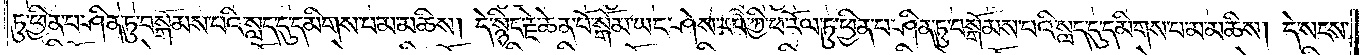ཏུ་ཕྱིན་པ་ཤིན་ཏུ་བསྒོམས་པའི་སླད་དུ་དམིགས་པ་མ་མཆིས། དེ་སྙིང་རྗེ་ཆེན་པོ་སྒོམ་ཡང་ཤེས་རབ་ཀྱི་ཕ་རོལ་ཏུ་ཕྱིན་པ་ཤིན་ཏུ་བསྒོམས་པའི་སླད་དུ་དམིགས་པ་མ་མཆིས། དེ་སངས་
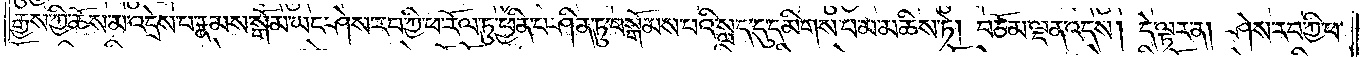རྒྱས་ཀྱི་ཆོས་མ་འདྲེས་པ་རྣམས་སྒོམ་ཡང་ཤེས་རབ་ཀྱི་ཕ་རོལ་ཏུ་ཕྱིན་པ་ཤིན་ཏུ་བསྒོམས་པའི་སླད་དུ་དམིགས་པ་མ་མཆིས་ཏེ། བཅོམ་ལྡན་འདས། དེ་ལྟར་ན། ཤེས་རབ་ཀྱི་ཕ་
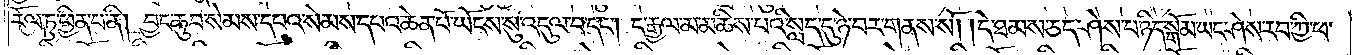རོལ་ཏུ་ཕྱིན་པ་ནི། བྱང་ཆུབ་སེམས་དཔའ་སེམས་དཔའ་ཆེན་པོ་ཡོངས་སུ་འདུལ་བ་དང༌། ང་རྒྱལ་མ་མཆིས་པའི་སླད་དུ་ཉེ་བར་གནས་སོ། །དེ་ཐམས་ཅད་ཤེས་པ་ཉིད་སྒོམ་ཡང་ཤེས་རབ་ཀྱི་ཕ་
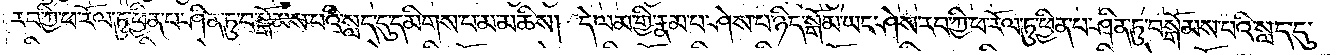རོལ་ཏུ་ཕྱིན་པ་ཤིན་ཏུ་བསྒོམས་པའི་སླད་དུ་དམིགས་པ་མ་མཆིས། དེ་ལམ་གྱི་རྣམ་པ་ཤེས་པ་ཉིད་སྒོམ་ཡང་ཤེས་རབ་ཀྱི་ཕ་རོལ་ཏུ་ཕྱིན་པ་ཤིན་ཏུ་བསྒོམས་པའི་སླད་དུ་
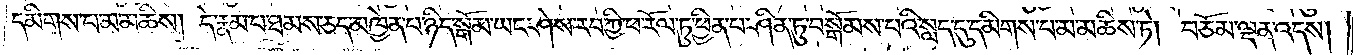དམིགས་པ་མ་མཆིས། དེ་རྣམ་པ་ཐམས་ཅད་མཁྱེན་པ་ཉིད་སྒོམ་ཡང་ཤེས་རབ་ཀྱི་ཕ་རོལ་ཏུ་ཕྱིན་པ་ཤིན་ཏུ་བསྒོམས་པའི་སླད་དུ་དམིགས་པ་མ་མཆིས་ཏེ། བཅོམ་ལྡན་འདས།
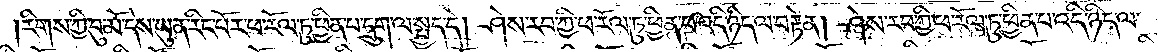རིགས་ཀྱི་བུ་མོ་དེས་ཡུན་རིང་པོར་ཕ་རོལ་ཏུ་ཕྱིན་པ་དྲུག་ལ་སྤྱད་དེ། ཤེས་རབ་ཀྱི་ཕ་རོལ་ཏུ་ཕྱིན་པ་འདི་ཉིད་ལ་བརྟེན། ཤེས་རབ་ཀྱི་ཕ་རོལ་ཏུ་ཕྱིན་པ་འདི་ཉིད་ལ་
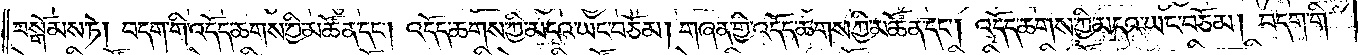བསྒོམས་ཏེ། བདག་གི་འདོད་ཆགས་ཀྱི་མཚོན་དང༌། འདོད་ཆགས་ཀྱི་མདའ་ཡང་བཅོམ། གཞན་གྱི་འདོད་ཆགས་ཀྱི་མཚོན་དང༌། འདོད་ཆགས་ཀྱི་མདའ་ཡང་བཅོམ། བདག་གི་
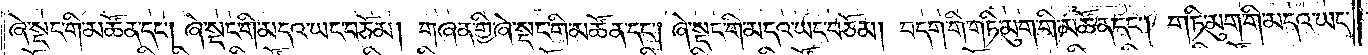ཞེ་སྡང་གི་མཚོན་དང༌། ཞེ་སྡང་གི་མདའ་ཡང་བཅོམ། གཞན་གྱི་ཞེ་སྡང་གི་མཚོན་དང༌། ཞེ་སྡང་གི་མདའ་ཡང་བཅོམ། བདག་གི་གཏི་མུག་གི་མཚོན་དང༌། གཏི་མུག་གི་མདའ་ཡང་
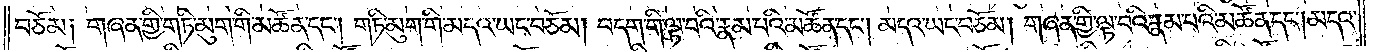བཅོམ། གཞན་གྱི་གཏི་མུག་གི་མཚོན་དང༌། གཏི་མུག་གི་མདའ་ཡང་བཅོམ། བདག་གི་ལྟ་བའི་རྣམ་པའི་མཚོན་དང༌། མདའ་ཡང་བཅོམ། གཞན་གྱི་ལྟ་བའི་རྣམ་པའི་མཚོན་དང༌། མདའ་
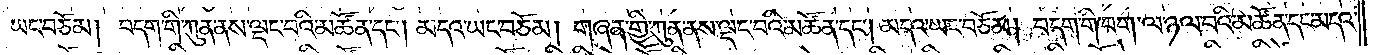ཡང་བཅོམ། བདག་གི་ཀུན་ནས་ལྡང་བའི་མཚོན་དང༌། མདའ་ཡང་བཅོམ། གཞན་གྱི་ཀུན་ནས་ལྡང་བའི་མཚོན་དང༌། མདའ་ཡང་བཅོམ། བདག་གི་བག་ལ་ཉལ་བའི་མཚོན་དང་མདའ་
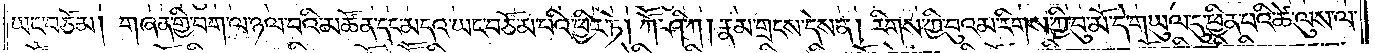ཡང་བཅོམ། གཞན་གྱི་བག་ལ་ཉལ་བའི་མཚོན་དང་མདའ་ཡང་བཅོམ་པའི་ཕྱིར་ཏེ། ཀཽ་ཤི་ཀ། རྣམ་གྲངས་དེས་ན། རིགས་ཀྱི་བུའམ་རིགས་ཀྱི་བུ་མོ་དེ་གཡུལ་དུ་ཕྱིན་པའི་ཚེ་ལུས་ལ་
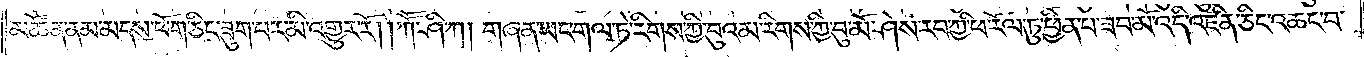མཚོན་ནམ་མདས་ཕོག་ཅིང་ཟུག་པར་མི་འགྱུར་རོ། །ཀཽ་ཤི་ཀ། གཞན་ཡང་གལ་ཏེ་རིགས་ཀྱི་བུའམ་རིགས་ཀྱི་བུ་མོ་ཤེས་རབ་ཀྱི་ཕ་རོལ་ཏུ་ཕྱིན་པ་ཟབ་མོ་འདི་འཛིན་ཅིང་འཆང་བ་
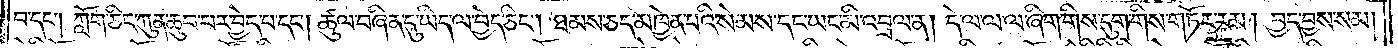བ་དང༌། ཀློག་ཅིང་ཀུན་ཆུབ་པར་བྱེད་པ་དང༌། ཚུལ་བཞིན་དུ་ཡིད་ལ་བྱེད་ཅིང༌། ཐམས་ཅད་མཁྱེན་པའི་སེམས་དང་ཡང་མི་འབྲལ་ན། དེ་ལ་ལ་ལ་ཞིག་གིས་དུག་གིས་གཏོར་རམ། བྱད་བྱས་སམ།
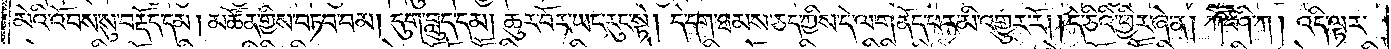མེའི་འོབས་སུ་བརྔོད་དམ། མཚོན་གྱིས་བཏབ་བམ། དུག་བླུད་དམ། ཆུར་བོར་ཡང་རུང་སྟེ། དེ་དག་ཐམས་ཅད་ཀྱིས་དེ་ལ་གནོད་པར་མི་འགྱུར་རོ༎ དེ་ཅིའི་ཕྱིར་ཞེ་ན། ཀཽ་ཤི་ཀ། འདི་ལྟར་
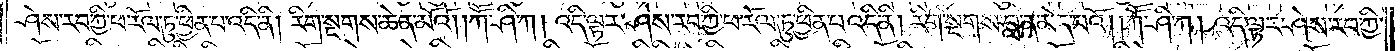ཤེས་རབ་ཀྱི་ཕ་རོལ་ཏུ་ཕྱིན་པ་འདི་ནི། རིག་སྔགས་ཆེན་མོའོ། །ཀཽ་ཤི་ཀ། འདི་ལྟར་ཤེས་རབ་ཀྱི་ཕ་རོལ་ཏུ་ཕྱིན་པ་འདི་ནི། རིག་སྔགས་བླ་ན་མེད་པའོ། །ཀཽ་ཤི་ཀ། འདི་ལྟར་ཤེས་རབ་ཀྱི་
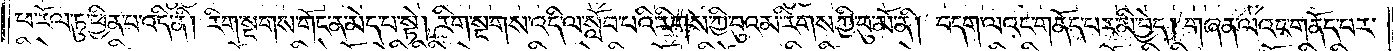ཕ་རོལ་ཏུ་ཕྱིན་པ་འདི་ནི། རིག་སྔགས་གོང་ན་མེད་པ་སྟེ། རིག་སྔགས་འདི་ལ་སློབ་པའི་རིགས་ཀྱི་བུའམ་རིགས་ཀྱི་བུ་མོ་ནི། བདག་ལའང་གནོད་པར་མི་བྱེད། གཞན་ལའང་གནོད་པར་
